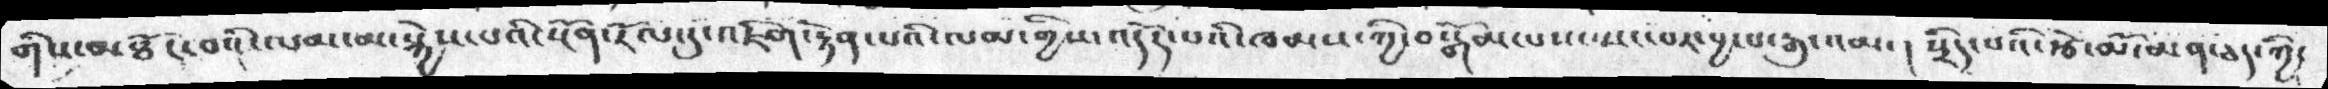གིས་མཐོང་བའི་ལམ་མ་སྐྱེས་པའི་སྔོན་རོལ་དུ་འཇིག་རྟེན་པའི་ལམ་གྱིས་འདོད་པའི་ཁམས་ཀྱི་བསྒོམ་པས་སྤང་བར་བྱ་བ་རྒུ་འམ་། སྲིད་པའི་རྩེ་མོ་མན་ཅད་ཀྱི་
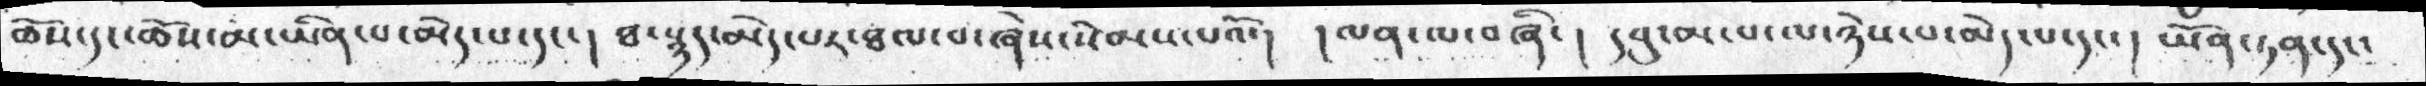ཆོས་དང་ཆོས་མ་ཡིན་པ་མེད་པ་དང་།  ཐ་སྙད་མེད་པར་ཐལ་བ་ཞེས་སེམས་པའོ་།  ། ལན་ལ་བཞི་།  དབུ་མ་པ་ལ་ཉེས་པ་མེད་པ་དང་།  ཡོན་ཏན་དང་
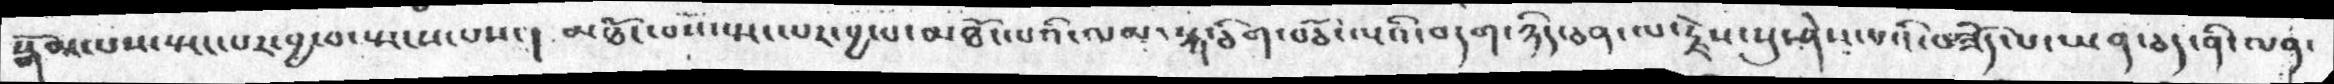སྒོམ་པས་སྤང་པར་བྱ་བ་སྤངས་པས་།  མཐོང་པས་སྤང་པར་བྱ་བ་མཐོང་པའི་ལམ་སྐ་ཅིག་བཅོ་ལྔའི་བདག་ཉིད་ཅན་ལ་རྗེས་སུ་ཤེས་པའི་བཟོད་པ་ཡན་ཅད་ནི་ལན་
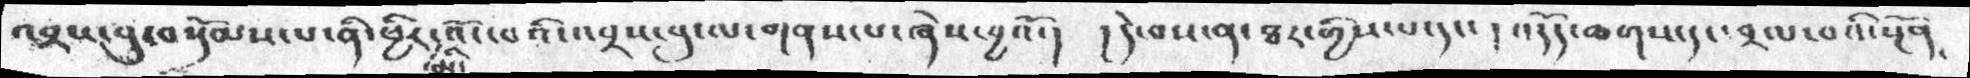འབྲས་བུ་བསྡོམས་པ་ནི་ཕྱིར་མི་འོང་བའི་འབྲས་བུ་ལ་གནས་པ་ཞེས་བྱའོ་།    ། དེ་བས་ན་ཐར་གྱིས་པ་དང་ ། འདོད་ཆགས་དང་བྲལ་བའི་སྔོན་
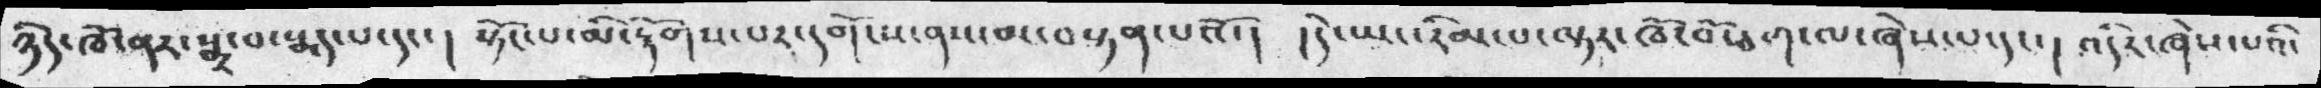ཉིད་ཁོ་ནར་སྨྲ་བ་སྨད་པ་དང་། སྟོང་པ་མི་རྟོགས་པར་དགོངས་ནས་མ་བསྟན་པའོ་།  །དེ་ཡང་རིམ་པ་ལྟར་ཁོ་བོ་ཅག་ལ་ཞེས་པ་དང་། འདིར་ཞེས་པའི་
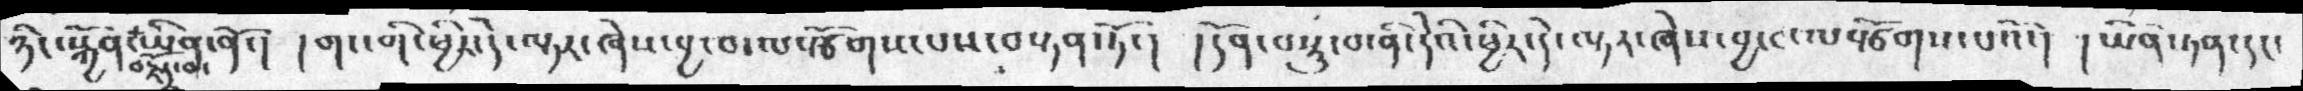ཉིང་སྐྱོན་ཡིན་ནོ་།   ། གང་གི་ཕྱིར་དེ་ལྟར་ཞེས་བྱ་བ་ལསྩོགས་པས་བསྟན་ཏོ་།  ། དོན་བསྡུ་བ་ནི་དེའི་ཕྱིར་དེ་ལྟར་ཞེས་བྱ་བ་ལསྩོགས་པའི་།  ཡོན་ཏན་དང་
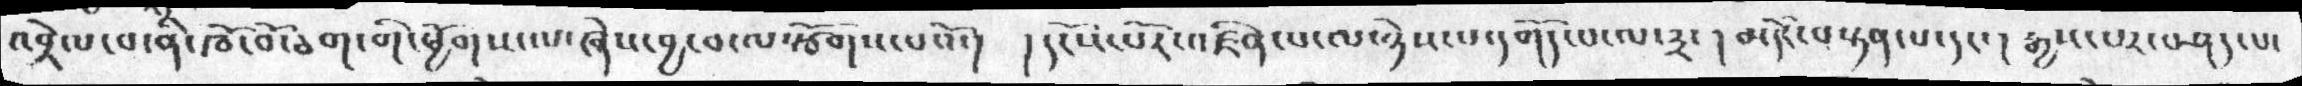འབྲེལ་བ་ནི་ཁོ་བོ་ཅག་གི་ཕྱོགས་ལ་ཞེས་བྱ་བ་ལསྩོགས་པའོ་།    ། དངོས་པོར་འཛིན་པ་ལ་ཉེས་པ་དགོད་པ་ལ་༣་  མདོར་བསྟན་པ་དང་  །  རྒྱས་པར་བཤད་པ་
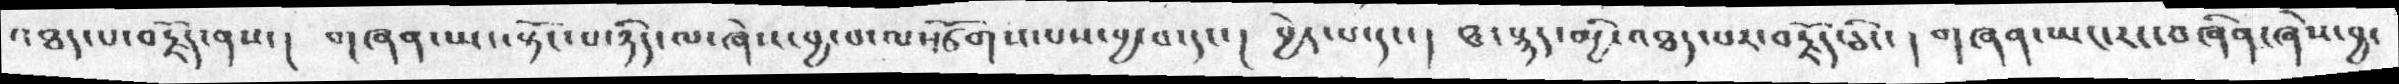འཏད་པ་བརྗོད་ནས་།  གཞན་ཡང་སྟོང་པ་ཉིད་ལ་ཞེས་བྱ་བ་ལསྩོགས་པས་བྱ་བ་དང་།  བྱེད་པ་དང་། ཐ་སྙད་མྱི་འཐད་པར་བརྗོད་ཅིང་། གཞན་ཡང་རང་བཞིན་ཞེས་བྱ་
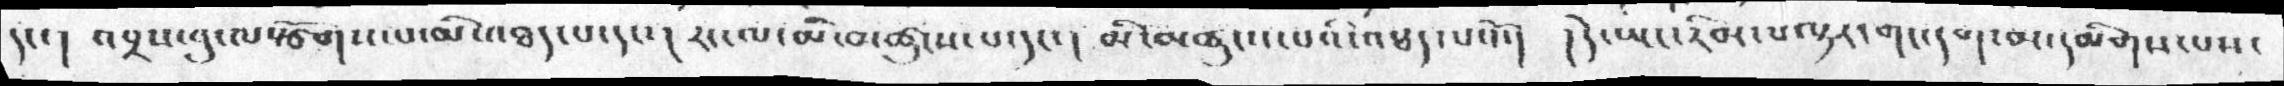དང་། འབྲས་བུ་ལསྩོགས་པ་མི་འཐད་པ་དང་།  རང་ལ་མི་མཚུངས་པ་དང་།  མི་མཚུངས་པའི་འཏད་པའོ་། །དེ་ཡང་རིམ་པལྟར་གང་དག་མ་དམིགས་པས་
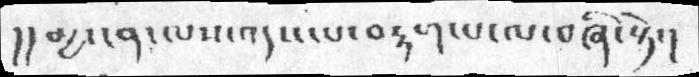།།མྱ་ངན་ལས་འདས་པ་བརྟག་པ་པ་བཞི་སྟེ་།
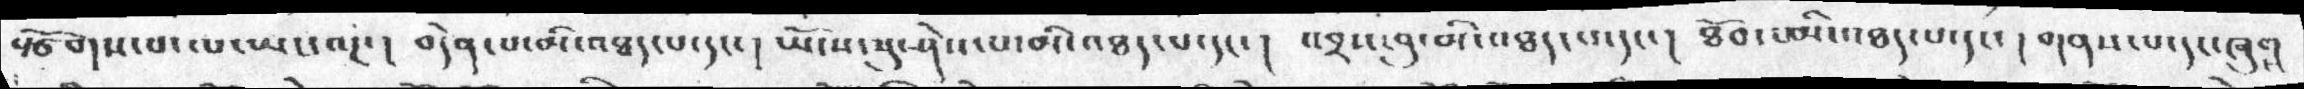སྩོགས་པ་ལཡང་འདྲ་།  བདེན་པ་མི་འཐད་པ་དང་།  ཡོངས་སུ་ཤེས་པ་མི་འཐད་པ་དང་།  འབྲས་བུ་མི་འཐད་པ་དང་།  ཐོབ་པ་མི་འཐད་པ་དང་།  གནས་པ་དང་ཞུགས
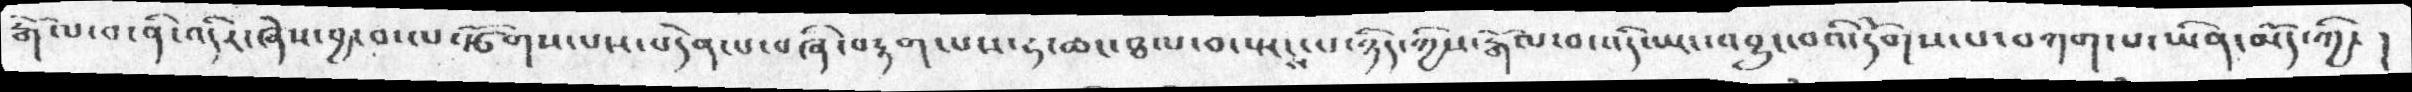རྒོལ་བ་ནི་འདིར་ཞེས་བྱ་བ་ལསྩོགས་པས་བདེན་པ་བཞི་བརྟག་པས་ཧ་ཆང་ཐལ་བ་སྤངས་པ་ཉིད་ཀྱིས་རྒོལ་བ་འདི་ཡང་འབྱུང་བའི་དོགས་པ་བཀག་པ་ཡིན་མོད་ཀྱི་ །
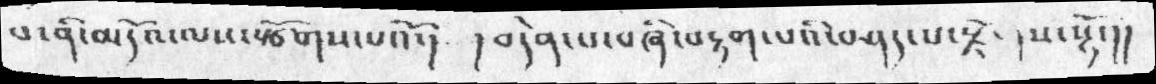པ་ནི་མདོའ་ལས་སྩོགས་པའོ་།   ། བདེན་པ་བཞི་བརྟག་པའི་བཤད་པ་སྟེ་ནས་སྷོ་།།
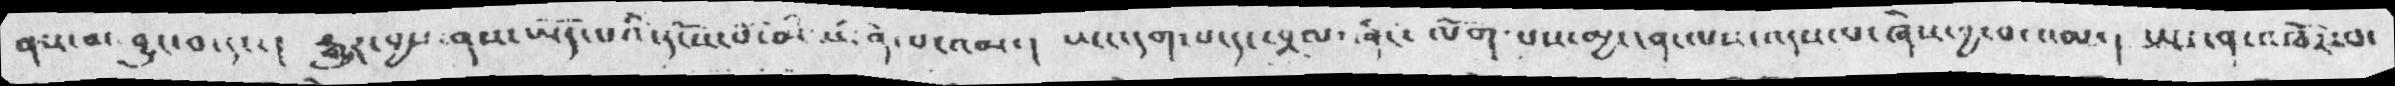ནས་མ་བྱུང་བ་དང་།   རྒྱུར་བྱས་ནས་ཡོད་པའི་དངོས་པོ་མ་ཡིན་འམ་།    ཡང་དག་པ་དང་བྲལ་ཞིང་ལོག་པས་མྱ་ངན་ལས་འདས་པ་ཞེས་བྱ་བ་འམ་།   ཡང་ན་འཁོར་བ་
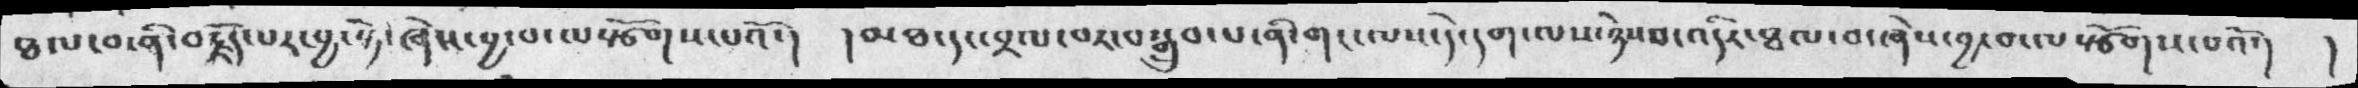ཐལ་བ་ནི་བརྗོད་པར་བྱ་སྟེ་ཞེས་བྱ་བ་ལསྩོགས་པའོ་།  །མཐ་དང་བྲལ་བར་བསྒྲུབ་པ་ནི་གང་ལས་དེ་དག་ལས་ཉེས་བ་འདིར་ཐལ་བ་ཞེས་བྱ་བ་ལསྩོགས་པའོ་། །
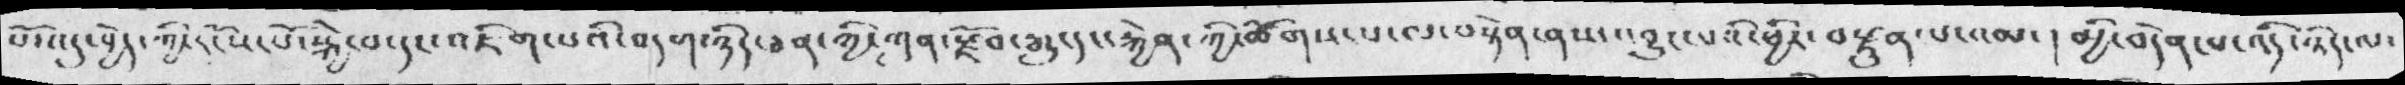པོས་འདུ་བྱེད་ཀྱི་དངོས་པོ་སྐྱེ་བ་དང་འཇིག་པའི་བདག་ཉིད་ཅན་ཀྱི་ཀུན་རྫོབ་རྒྱུ་དང་རྐྱེན་ཚོགས་པ་ལ་བསྟེན་ནས་འབྱུང་པའི་ཕྱིར་བརྫུན་པ་འམ་། མྱི་བདེན་པ་འདི་ཉིད་ལ་
